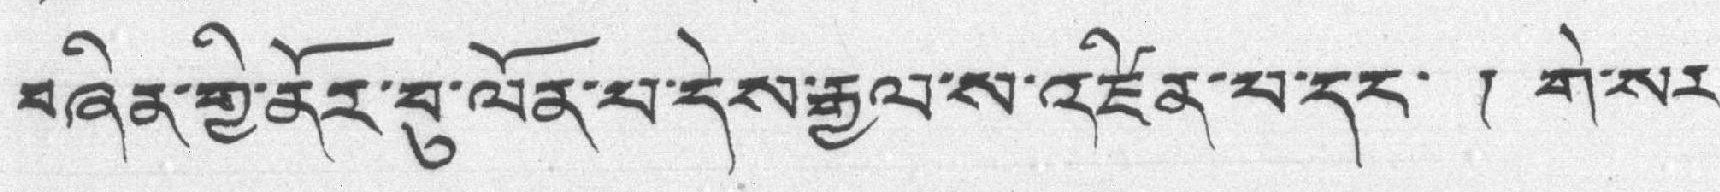བཞིན་གྱི་ནོར་བུ་ལོན་པ་དེས་རྒྱལ་ས་འཛིན་པ་དང་ ། གེ་སར་
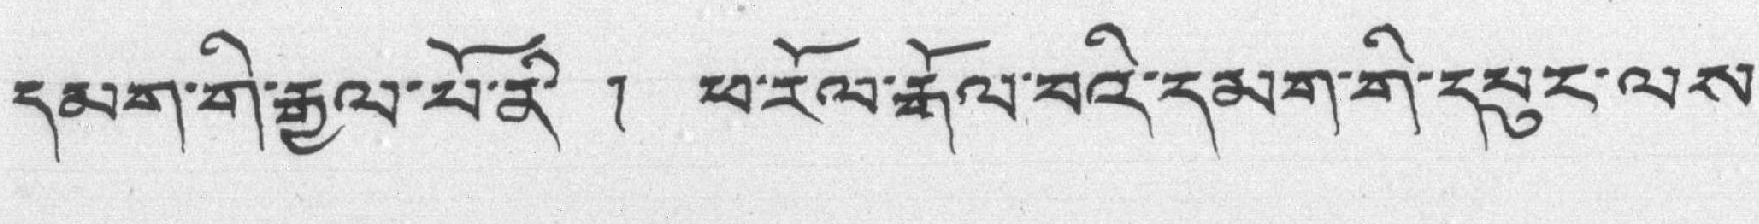དམག་གི་རྒྱལ་པོ་ནི ། ཕ་རོལ་རྒོལ་བའི་དམག་གི་དཔུང་ལས་
